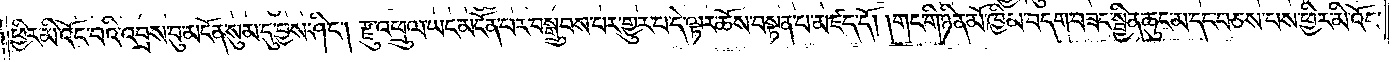ཕྱིར་མི་འོང་བའི་འབྲས་བུ་མངོན་སུམ་དུ་བྱས་ཤིང༌། རྫུ་འཕྲུལ་ཡང་མངོན་པར་བསྒྲུབས་པར་གྱུར་པ་དེ་ལྟར་ཆོས་བསྟན་པ་མཛད་དོ། །གང་གི་ཉིན་མོ་ཁྱིམ་བདག་བཟང་སྦྱིན་ཆུང་མ་དང་བཅས་པས་ཕྱིར་མི་འོང་
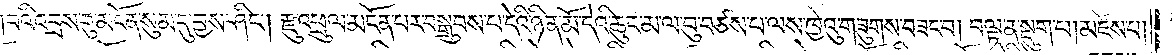བའི་འབྲས་བུ་མངོན་སུམ་དུ་བྱས་ཤིང༌། རྫུ་འཕྲུལ་མངོན་པར་བསྒྲུབས་པ་དེའི་ཉིན་མོ་དེའི་ཆུང་མ་ལ་བུ་བཙས་པ་ལས་ཁྱེའུ་གཟུགས་བཟང་བ། བལྟ་ན་སྡུག་པ། མཛེས་པ།
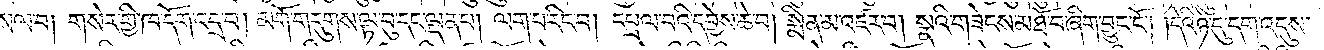གསལ་བ། གསེར་གྱི་ཁ་དོག་འདྲ་བ། མགོ་གདུགས་ལྟ་བུ་དང་ལྡན་པ། ལག་པ་རིང་བ། དཔྲལ་བའི་དབྱེས་ཆེ་བ། སྨིན་མ་འཛང་བ། སྣའི་གཟེངས་མཐོ་བ་ཞིག་བྱུང་ངོ༌། །དེའི་ཉེ་དུ་དག་འདུས་
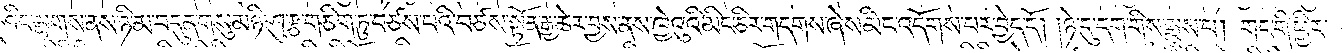ཤིང་ལྷགས་ནས་ཉི་མ་བདུན་གསུམ་ཉི་ཤུ་རྩ་གཅིག་ཏུ་བཙས་པའི་བཙས་སྟོན་རྒྱ་ཆེར་བྱས་ནས་ཁྱེའུའི་མིང་ཅིར་གདགས་ཞེས་མིང་འདོགས་པར་བྱེད་དོ། །ཉེ་དུ་དག་གིས་སྨྲས་པ། གང་གི་ཕྱིར་
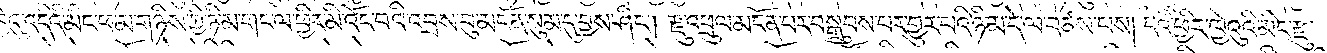ཁྱེའུ་འདིའི་མིང་ཕ་མ་གཉིས་ཀྱི་ཉི་མ་གང་ལ་ཕྱིར་མི་འོང་བའི་འབྲས་བུ་མངོན་སུམ་དུ་བྱས་ཤིང༌། རྫུ་འཕྲུལ་མངོན་པར་བསྒྲུབས་པར་གྱུར་པའི་ཉི་མ་དེ་ལ་བཙས་པས། དེའི་ཕྱིར་ཁྱེའུའི་མིང་རྫུ་
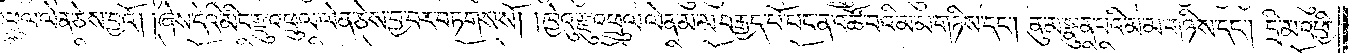འཕྲུལ་ལེན་ཅེས་བྱའོ། །ཞེས་དེའི་མིང་རྫུ་འཕྲུལ་ལེན་ཅེས་བྱ་བར་བཏགས་སོ། །ཁྱེའུ་རྫུ་འཕྲུལ་ལེན་མ་མ་བརྒྱད་པོ་པང་ན་འཚོ་བའི་མ་མ་གཉིས་དང༌། ནུ་མ་སྣུན་པའི་མ་མ་གཉིས་དང༌། དྲི་མ་འཕྱི་
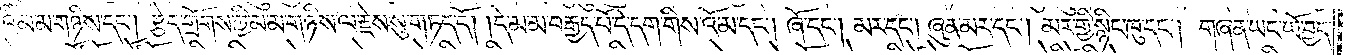བའི་མ་མ་གཉིས་དང༌། རྩེད་གྲོགས་ཀྱི་མ་མ་གཉིས་ལ་རྗེས་སུ་གཏད་དོ། །དེ་མ་མ་བརྒྱད་པོ་དེ་དག་གིས་འོ་མ་དང༌། ཞོ་དང༌། མར་དང༌། ཞུན་མར་དང༌། མར་གྱི་སྙིང་ཁུ་དང༌། གཞན་ཡང་ཡོ་བྱད་
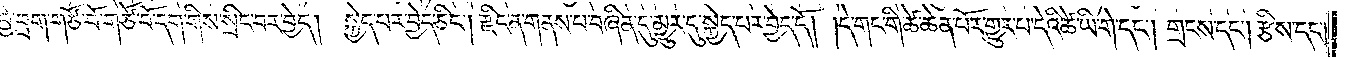བྱེ་བྲག་གཙོ་བོ་གཙོ་བོ་དག་གིས་སྲིང་བར་བྱེད། སྐྱེད་པར་བྱེད་ཅིང༌། རྫིང་ན་གནས་པ་བཞིན་དུ་མྱུར་དུ་སྐྱེད་པར་བྱེད་དོ། །དེ་གང་གི་ཚེ་ཆེན་པོར་གྱུར་པ་དེའི་ཚེ་ཡི་གེ་དང༌། གྲངས་དང༌། རྩིས་དང༌།
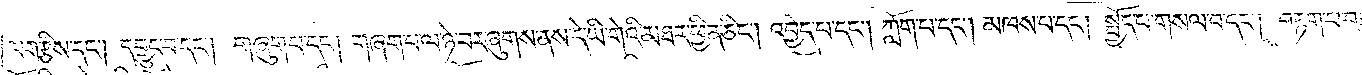ལག་རྩིས་དང༌། དབྱུང་བ་དང༌། གཞུག་པ་དང༌། གཞག་པ་ལ་ཉེ་བར་ཞུགས་ནས་དེ་ཡི་གེའི་མཐར་ཕྱིན་ཅིང༌། འབྱེད་པ་དང༌། ཀློག་པ་དང༌། མཁས་པ་དང༌། སྤྱོད་པ་གསལ་བ་དང༌། བརྟག་པ་བ
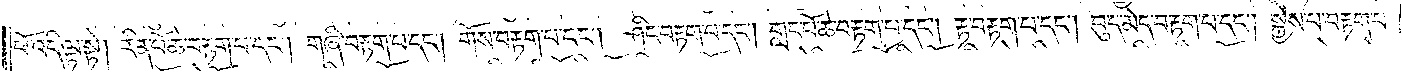པོ་འདི་ལྟ་སྟེ། རིན་པོ་ཆེ་བརྟག་པ་དང༌། གཞི་བརྟག་པ་དང༌། གོས་བརྟག་པ་དང༌། ཤིང་བརྟག་པ་དང༌། གླང་པོ་ཆེ་བརྟག་པ་དང༌། རྟ་བརྟག་པ་དང༌། བུད་མེད་བརྟག་པ་དང༌། སྐྱེས་པ་བརྟག་པ་
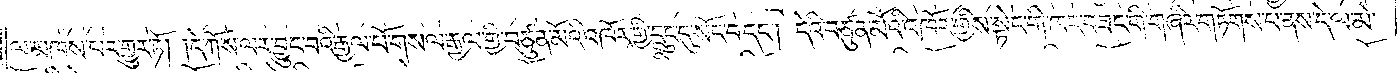ལ་མཁས་པར་གྱུར་ཏོ། །དེ་ཀོ་ས་ལར་བྱུང་བའི་རྒྱལ་པོ་གསལ་རྒྱལ་གྱི་བཙུན་མོའི་འཁོར་གྱི་དྲུང་དུ་སོང་བ་དང༌། དེའི་བཙུན་མོའི་འཁོར་གྱིས་སྟེང་གི་ཁང་བཟང་གི་གཞིར་གཏོགས་པ་ནས་དེ་ལ་མེ་
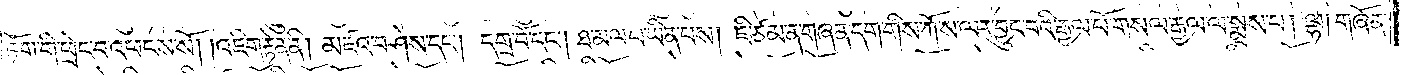ཏོག་གི་ཕྲེང་བ་འཕངས་སོ། །འཇིག་རྟེན་ནི། མཛའ་བཤེས་དང༌། དགྲ་བོ་དང༌། ཐ་མལ་པ་ཡིན་པས། ཇི་ཙམ་ན་གཞན་དག་གིས་ཀོ་ས་ལར་བྱུང་བའི་རྒྱལ་པོ་གསལ་རྒྱལ་ལ་སྨྲས་པ། ལྷ། གཞོན་
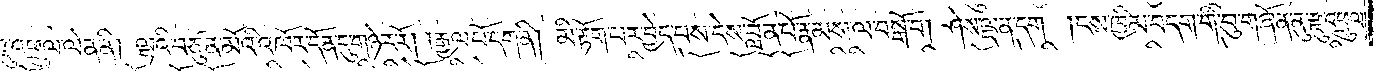ནུ་རྫུ་འཕྲུལ་ལེན་ནི། ལྷའི་བཙུན་མོའི་འཁོར་དོན་དུ་གཉེར་རོ། །རྒྱལ་པོ་དག་ནི། མི་རྟོག་པར་བྱེད་པས་དེས་བློན་པོ་རྣམས་ལ་བསྒོ་བ། ཤེས་ལྡན་དག །ངས་ཁྱིམ་བདག་གི་བུ་གཞོན་ནུ་རྫུ་འཕྲུལ་
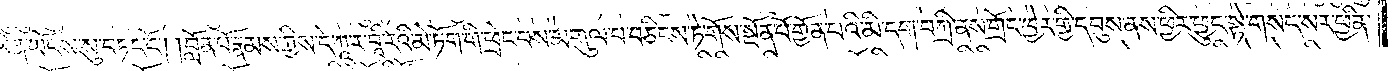ལེན་ཡོངས་སུ་བཏང་ངོ༌། །བློན་པོ་རྣམས་ཀྱིས་དེ་ཀཱ་ར་བཱི་རའི་མེ་ཏོག་གི་ཕྲེང་བས་མགུལ་པ་བཅིངས་ཏེ་གོས་སྔོན་པོ་གྱོན་པའི་མི་དག་བཀྲི་ནས་གྲོང་ཁྱེར་གྱི་དབུས་ནས་ཕྱིར་ཕྱུང་སྟེ་གསད་སར་ཕྱིན་
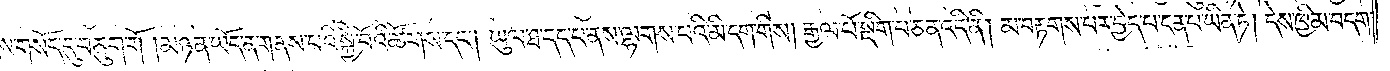ས་གསོད་དུ་བཅུག་གོ །མཉན་ཡོད་ན་གནས་པའི་སྐྱེ་བོའི་ཚོགས་དང༌། ཡུལ་ཐ་དད་པ་ནས་ལྷགས་པའི་མི་དག་གིས་།རྒྱལ་པོ་སྡིག་པ་ཅན་འདི་ནི། མ་བརྟགས་པར་བྱེད་པ་ངན་པ་ཡིན་ཏེ། དེས་ཁྱིམ་བདག་
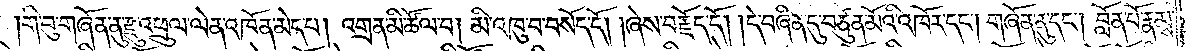གི་བུ་གཞོན་ནུ་རྫུ་འཕྲུལ་ལེན་འཁོན་མེད་པ། འགྲན་མི་ཚོལ་བ། མི་འཁུ་བ་བསོད་དོ། །ཞེས་བརྗོད་དོ། །དེ་བཞིན་དུ་བཙུན་མོའི་འཁོར་དང༌། གཞོན་ནུ་དང༌། བློན་པོ་རྣམས་
